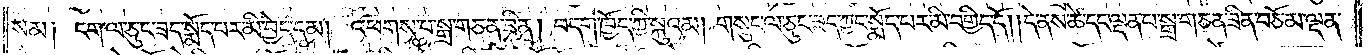སམ། ངག་ལ་ཅུང་ཟད་སྨོད་པར་མི་བྱེད་དམ། འཕགས་པ་སྒྲ་གཅན་ཟིན། བདག་ཁྱོད་ཀྱི་སྐུའམ། གསུང་ལ་ཅུང་ཟད་ཀྱང་སྨོད་པར་མི་བགྱིད་དོ། །དེ་ནས་ཚེ་དང་ལྡན་པ་སྒྲ་གཅན་ཟིན་བཅོམ་ལྡན་
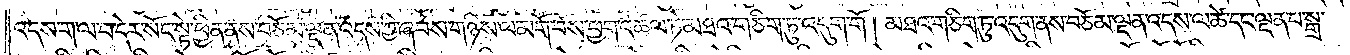འདས་ག་ལ་བ་དེར་སོང་སྟེ་ཕྱིན་ནས་བཅོམ་ལྡན་འདས་ཀྱི་ཞབས་གཉིས་ལ་མགོ་བོས་ཕྱག་འཚལ་ཏེ་མཐའ་གཅིག་ཏུ་འདུག་གོ ། མཐའ་གཅིག་ཏུ་འདུག་ནས་བཅོམ་ལྡན་འདས་ལ་ཚེ་དང་ལྡན་པ་སྒྲ་
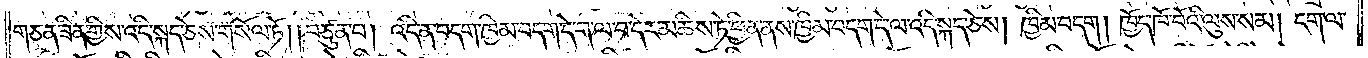གཅན་ཟིན་གྱིས་འདི་སྐད་ཅེས་གསོལ་ཏོ། །བཙུན་པ། འདི་ན་བདག་ཁྱིམ་བདག་དེ་ག་ལ་བ་དེར་མཆིས་ཏེ་ཕྱིན་ནས་ཁྱིམ་བདག་དེ་ལ་འདི་སྐད་ཅེས། ཁྱིམ་བདག། ཁྱོད་ཁོ་བོའི་ལུས་སམ། ངག་ལ་
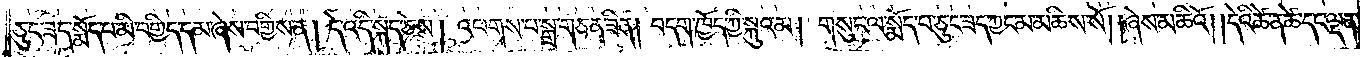ཅུང་ཟད་སྨོད་པ་མི་བགྱིད་དམ་ཞེས་བགྱིས་ན། དེ་འདི་སྐད་ཅེས། འཕགས་པ་སྒྲ་གཅན་ཟིན། བདག་ཁྱོད་ཀྱི་སྐུའམ། གསུང་ལ་སྨོད་པ་ཅུང་ཟད་ཀྱང་མ་མཆིས་སོ། །ཞེས་མཆིའོ། །དེའི་ཚེ་ན་ཚེ་དང་ལྡན་
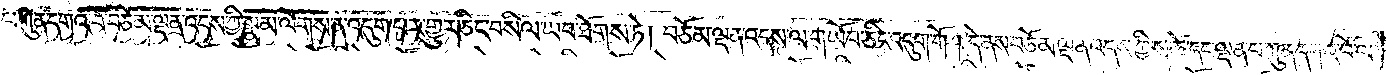པ་ཀུན་དགའ་བོ་བཅོམ་ལྡན་འདས་ཀྱི་སྣམ་ལོགས་ན་འདུག་པར་གྱུར་ཅིང་བསིལ་ཡབ་ཐོགས་ཏེ། བཅོམ་ལྡན་འདས་ལ་གཡོབ་ཅིང་འདུག་གོ །དེ་ནས་བཅོམ་ལྡན་འདས་ཀྱིས་ཚེ་དང་ལྡན་པ་ཀུན་དགའ་བོ་ལ་
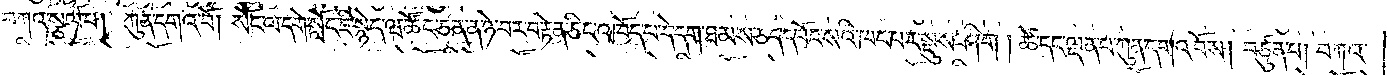བཀའ་སྩལ་པ། ཀུན་དགའ་བོ། སོང་ལ་དགེ་སློང་ཇི་སྙེད་ཝ་ཚོང་ཅན་ན་ཉེ་བར་བརྟེན་ཅིང་འཁོད་པ་དེ་དག་ཐམས་ཅད་དཔོང་སའི་ཁང་པར་སྡུས་ཤིག །ཚེ་དང་ལྡན་པ་ཀུན་དགའ་བོས། བཙུན་པ། བཀའ་
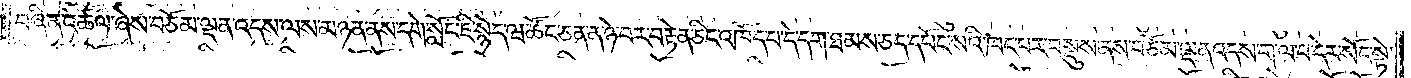བཞིན་འཚལ་ཞེས་བཅོམ་ལྡན་འདས་ལས་མཉན་ནས་དགེ་སློང་ཇི་སྙེད་ཝ་ཚོང་ཅན་ན་ཉེ་བར་བརྟེན་ཅིང་འཁོད་པ་དེ་དག་ཐམས་ཅད་དཔོང་སའི་ཁང་པར་བསྡུས་ནས་བཅོམ་ལྡན་འདས་ག་ལ་བ་དེར་སོང་སྟེ་
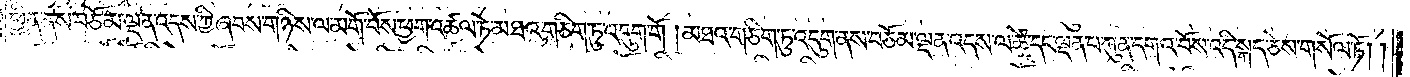ཕྱིན་ནས་བཅོམ་ལྡན་འདས་ཀྱི་ཞབས་གཉིས་ལ་མགོ་བོས་ཕྱག་འཚལ་ཏེ་མཐའ་གཅིག་ཏུ་འདུག་གོ །མཐའ་གཅིག་ཏུ་འདུག་ནས་བཅོམ་ལྡན་འདས་ལ་ཚེ་དང་ལྡན་པ་ཀུན་དགའ་བོས་འདི་སྐད་ཅེས་གསོལ་ཏོ། །
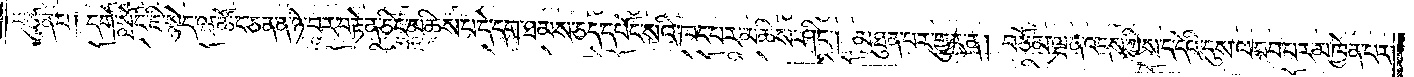བཙུན་པ། དགེ་སློང་ཇི་སྙེད་ཝ་ཚོང་ཅན་ན་ཉེ་བར་བརྟེན་ཅིང་མཆིས་པ་དེ་དག་ཐམས་ཅད་དཔོང་སའི་ཁང་པར་མཆིས་ཤིང༌། མཐུན་པར་གྱུར་ན། བཅོམ་ལྡན་འདས་ཀྱིས་ད་དེའི་དུས་ལ་བབ་པར་མཁྱེན་པར་
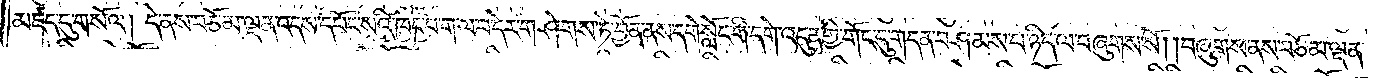མཛད་དུ་གསོལ། དེ་ནས་བཅོམ་ལྡན་འདས་དཔོང་སའི་ཁང་པ་ག་ལ་བ་དེར་གཤེགས་ཏེ་བྱོན་ནས་དགེ་སློང་གི་དགེ་འདུན་གྱི་གོང་དུ་གདན་བཤམས་པ་ཉིད་ལ་བཞུགས་སོ། །བཞུགས་ནས་བཅོམ་ལྡན་
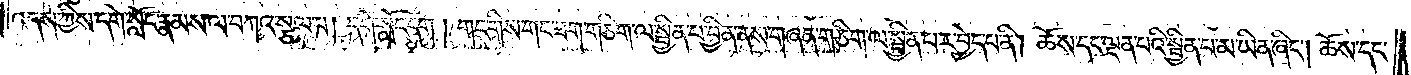འདས་ཀྱིས་དགེ་སློང་རྣམས་ལ་བཀའ་སྩལ་པ། དགེ་སློང་དག། གང་གིས་གང་ཟག་གཅིག་ལ་སྦྱིན་པ་བྱིན་ནས་གཞན་གཅིག་ལ་སྦྱིན་པར་བྱེད་པ་ནི། ཆོས་དང་ལྡན་པའི་སྦྱིན་པ་མ་ཡིན་ཞིང༌། ཆོས་དང་
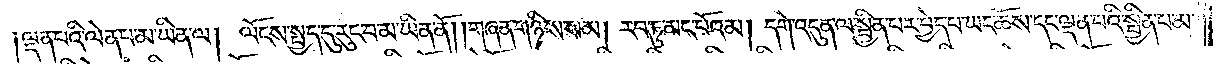ལྡན་པའི་ལེན་པ་མ་ཡིན་ལ། ལོངས་སྤྱད་དུ་རུང་བ་མ་ཡིན་ནོ། །གཞན་གཉིས་སམ། རབ་ཏུ་མང་པོའམ། དགེ་འདུན་ལ་སྦྱིན་པར་བྱེད་པ་ཡང་ཆོས་དང་ལྡན་པའི་སྦྱིན་པ་མ་
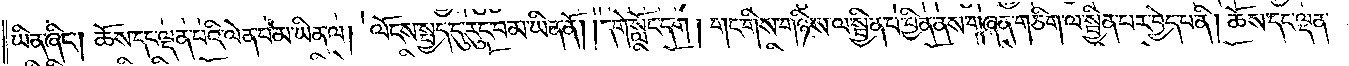ཡིན་ཞིང༌། ཆོས་དང་ལྡན་པའི་ལེན་པ་མ་ཡིན་ལ། ལོངས་སྤྱོད་དུ་རུང་བ་མ་ཡིན་ནོ། །དགེ་སློང་དག། གང་གིས་གཉིས་ལ་སྦྱིན་པ་བྱིན་ནས་གཞན་གཅིག་ལ་སྦྱིན་པར་བྱེད་པ་ནི། ཆོས་དང་ལྡན་
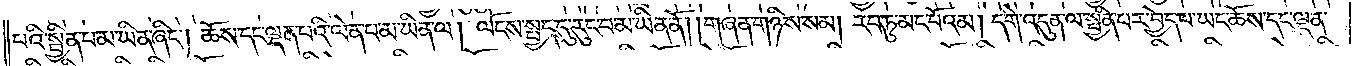པའི་སྦྱིན་པ་མ་ཡིན་ཞིང༌། ཆོས་དང་ལྡན་པའི་ལེན་པ་མ་ཡིན་ལ། ལོངས་སྤྱད་དུ་རུང་བ་མ་ཡིན་ནོ། །གཞན་གཉིས་སམ། རབ་ཏུ་མང་པོའམ། དགེ་འདུན་ལ་སྦྱིན་པར་བྱེད་པ་ཡང་ཆོས་དང་ལྡན་
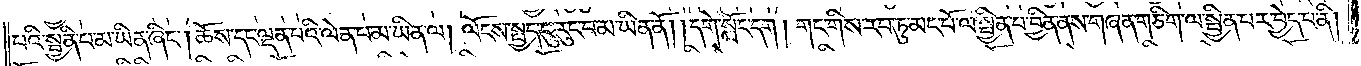པའི་སྦྱིན་པ་མ་ཡིན་ཞིང༌། ཆོས་དང་ལྡན་པའི་ལེན་པ་མ་ཡིན་ལ། ལོངས་སྤྱད་དུ་རུང་བ་མ་ཡིན་ནོ། །དགེ་སློང་དག། གང་གིས་རབ་ཏུ་མང་པོ་ལ་སྦྱིན་པ་བྱིན་ནས་གཞན་གཅིག་ལ་སྦྱིན་པར་བྱེད་པ་ནི།
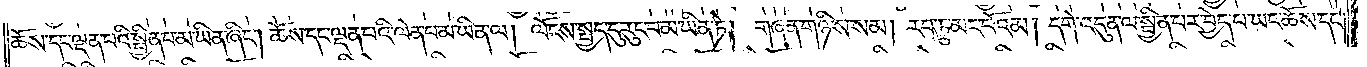ཆོས་དང་ལྡན་པའི་སྦྱིན་པ་མ་ཡིན་ཞིང༌། ཆོས་དང་ལྡན་པའི་ལེན་པ་མ་ཡིན་ལ། ལོངས་སྤྱད་དུ་རུང་བ་མ་ཡིན་ཏེ། གཞན་གཉིས་སམ། རབ་ཏུ་མང་པོའམ། དགེ་འདུན་ལ་སྦྱིན་པར་བྱེད་པ་ཡང་ཆོས་དང་
